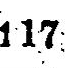117
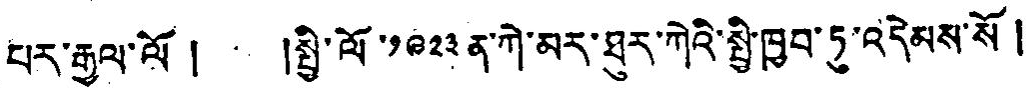པར་རྒྱལ་ལོ། །སྤྱི་ལོ་༡༩༢༣ ན་ཀེ་མར་ཐུར་ཀེའི་སྤྱི་ཁྱབ་ཏུ་འདེམས་སོ།
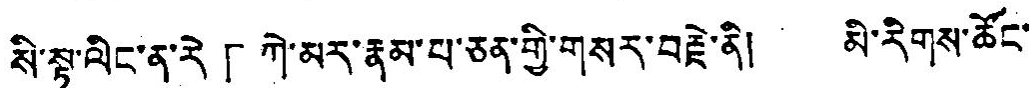སི་སྟ་ལིང་ན་རེ「ཀེ་མར་རྣམ་པ་ཅན་གྱི་གསར་བརྗེ་ནི། མི་རིགས་ཚོང་
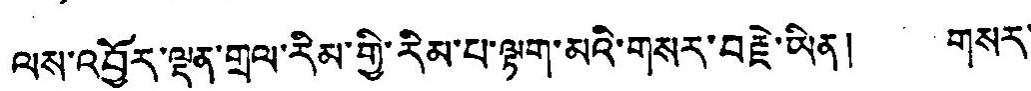ལས་འབྱོར་ལྡན་གྲལ་རིམ་གྱི་རིམ་པ་ལྟག་མའི་གསར་བརྗེ་ཡིན། གསར་
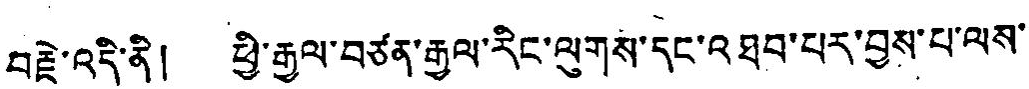བརྗེ་འདི་ནི། ཕྱི་རྒྱལ་བཙན་རྒྱལ་རིང་ལུགས་དང་འཐབ་པར་བྱས་པ་ལས་
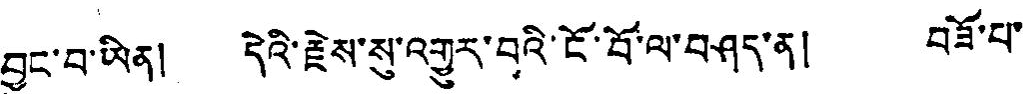བྱུང་བ་ཡིན། དེའི་རྗེས་སུ་འགྱུར་བའི་ངོ་བོ་ལ་བཤད་ན། བཟོ་པ་
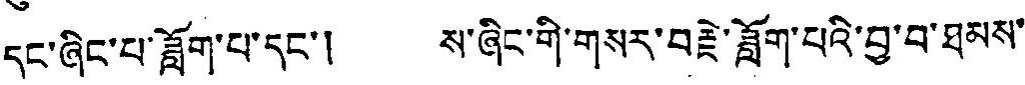དང་ཞིང་པ་ཟློག་པ་དང་། ས་ཞིང་གི་གསར་བརྗེ་ཟློག་པའི་བྱ་བ་ཐམས་
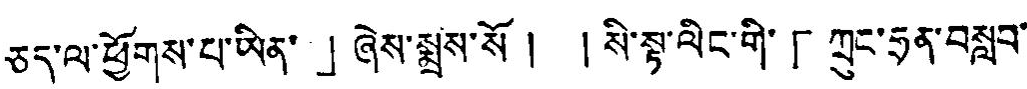ཅད་ལ་ཕྱོགས་པ་ཡིན་」ཞེས་སྨྲས་སོ། །སི་སྟ་ལིང་གི་「ཀྲུང་ཧྲན་བསླབ་
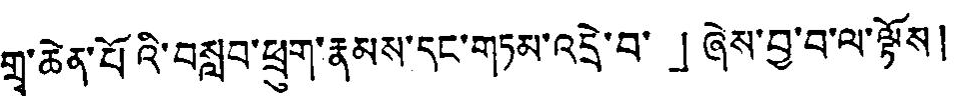གྲྭ་ཆེན་པོའི་བསླབ་ཕྲུག་རྣམས་དང་གཏམ་འདྲེ་བ་」ཞེས་བྱ་བ་ལ་ལྟོས།
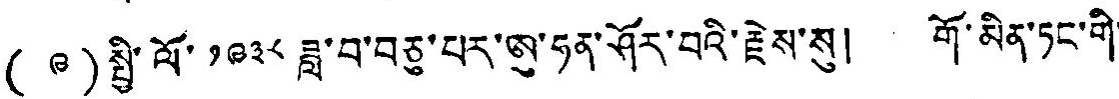(༩)སྤྱི་ལོ་༡༩༣༨ ཟླ་བ་བཅུ་པར་ཨུ་ཧན་ཤོར་བའི་རྗེས་སུ། གོ་མིན་ཏང་གི་
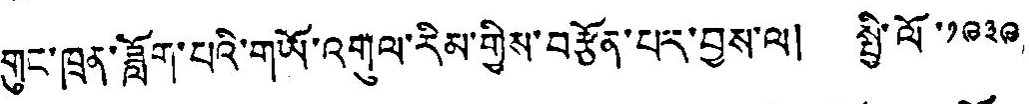གུང་ཁྲན་ཟློག་པའི་གཡོ་འགུལ་རིམ་གྱིས་བརྩོན་པར་བྱས་ལ། སྤྱི་ལོ་༡༩༣༩
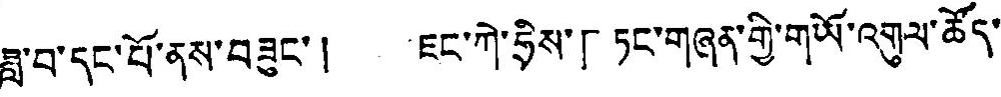ཟླ་བ་དང་པོ་ནས་བཟུང་། ཇང་ཀེ་ཧྲིས་「ཏང་གཞན་གྱི་གཡོ་འགུལ་ཚོད་
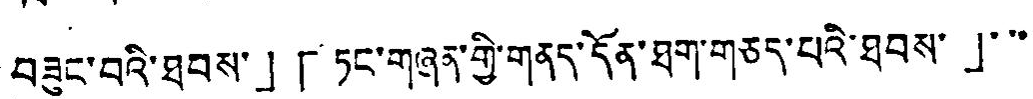བཟུང་བའི་ཐབས་」「ཏང་གཞན་གྱི་གནད་དོན་ཐག་གཅད་པའི་ཐབས་」་་་
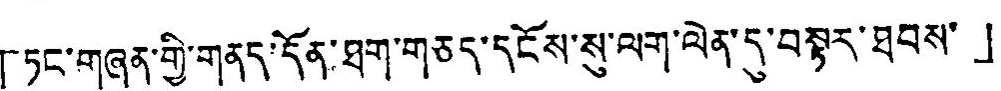「ཏང་གཞན་གྱི་གནད་དོན་ཐག་གཅད་དངོས་སུ་ལག་ལེན་དུ་བསྟར་ཐབས་」
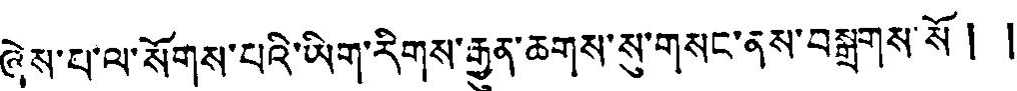ཞེས་པ་ལ་སོགས་པའི་ཡིག་རིགས་རྒྱུན་ཆགས་སུ་གསང་ནས་བསྒྲགས་སོ། །
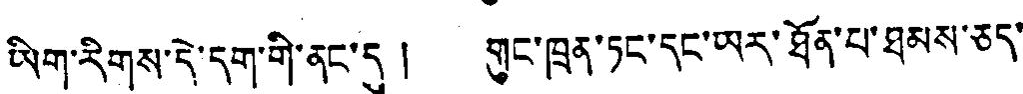ཡིག་རིགས་དེ་དག་གེ་ནང་དུ། གུང་ཁྲན་ཏང་དང་ཡར་ཐོན་པ་ཐམས་ཅད་
